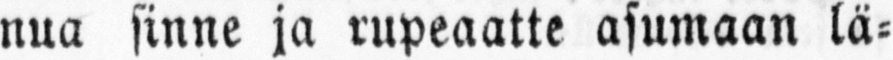nua sinne ja rupeaatte asumaan lä-
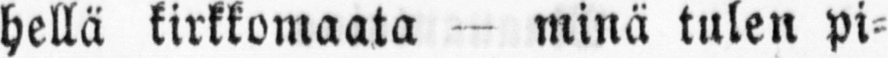hellä kirkkomaata — minä tulen pi-
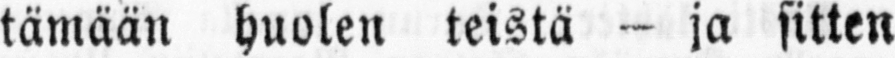tämään huolen teistä — ja sitten
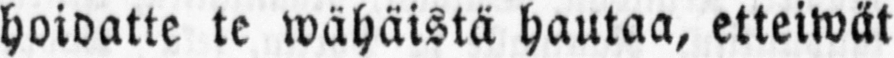hoidatte te wähäistä hautaa, etteiwät
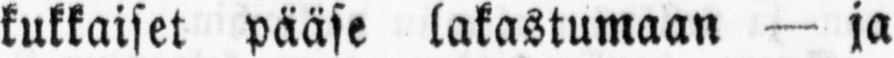kukkaiset pääse lakastumaan — ja
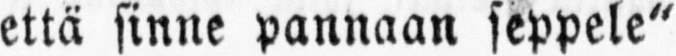että sinne pannaan seppele"
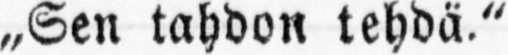„Sen tahdon tehdä."
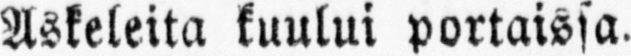Askeleita kuului portaissa.
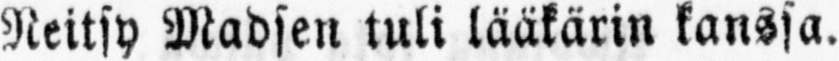Neitsy Madsen tuli lääkärin kanssa.
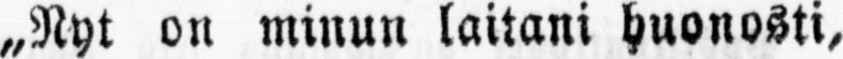„Nyt ou minun laitani huonosti,
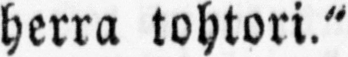herra tohtori."
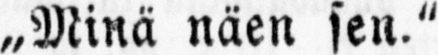„Minä näen sen."
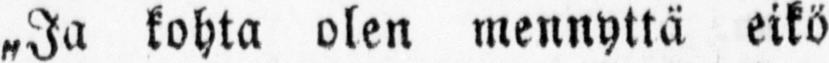„Ja kohta olen mennyttä eikö
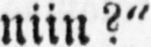niin?"
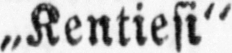„Kentiesi"
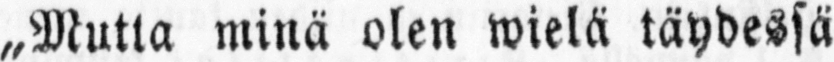„Mutta minä olen wielä täydessä
